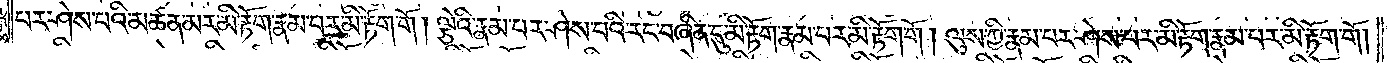པར་ཤེས་པའི་མཚན་མར་མི་རྟོག་རྣམ་པར་མི་རྟོག་གོ །ལྕེའི་རྣམ་པར་ཤེས་པའི་རང་བཞིན་དུ་མི་རྟོག་རྣམ་པར་མི་རྟོག་གོ །ལུས་ཀྱི་རྣམ་པར་ཤེས་པར་མི་རྟོག་རྣམ་པར་མི་རྟོག་གོ།
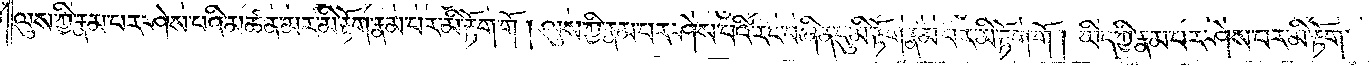ལུས་ཀྱི་རྣམ་པར་ཤེས་པའི་མཚན་མར་མི་རྟོག་རྣམ་པར་མི་རྟོག་གོ། ལུས་ཀྱི་རྣམ་པར་ཤེས་པའི་རང་བཞིན་དུ་མི་རྟོག་རྣམ་པར་མི་རྟོག་གོ །ཡིད་ཀྱི་རྣམ་པར་ཤེས་པར་མི་རྟོག་
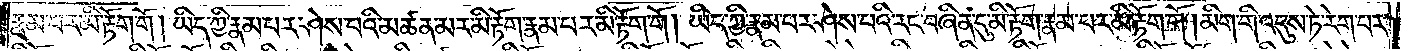རྣམ་པར་མི་རྟོག་གོ །ཡིད་ཀྱི་རྣམ་པར་ཤེས་པའི་མཚན་མར་མི་རྟོག་རྣམ་པར་མི་རྟོག་གོ །ཡིད་ཀྱི་རྣམ་པར་ཤེས་པའི་རང་བཞིན་དུ་མི་རྟོག་རྣམ་པར་མི་རྟོག་གོ །མིག་གི་འདུས་ཏེ་རེག་པར་
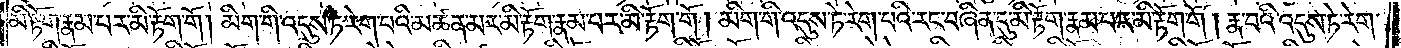མི་རྟོག་རྣམ་པར་མི་རྟོག་གོ །མིག་གི་འདུས་ཏེ་རེག་པའི་མཚན་མར་མི་རྟོག་རྣམ་པར་མི་རྟོག་གོ །མིག་གི་འདུས་ཏེ་རེག་པའི་རང་བཞིན་དུ་མི་རྟོག་རྣམ་པར་མི་རྟོག་གོ །རྣ་བའི་འདུས་ཏེ་རེག་
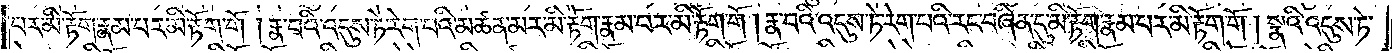པར་མི་རྟོག་རྣམ་པར་མི་རྟོག་གོ །རྣ་བའི་འདུས་ཏེ་རེག་པའི་མཚན་མར་མི་རྟོག་རྣམ་པར་མི་རྟོག་གོ །རྣ་བའི་འདུས་ཏེ་རེག་པའི་རང་བཞིན་དུ་མི་རྟོག་རྣམ་པར་མི་རྟོག་གོ །སྣའི་འདུས་ཏེ་
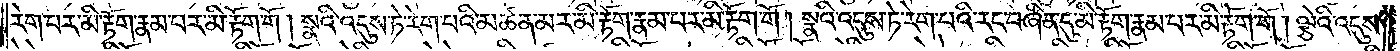རེག་པར་མི་རྟོག་རྣམ་པར་མི་རྟོག་གོ། སྣའི་འདུས་ཏེ་རེག་པའི་མཚན་མར་མི་རྟོག་རྣམ་པར་མི་རྟོག་གོ །སྣའི་འདུས་ཏེ་རེག་པའི་རང་བཞིན་དུ་མི་རྟོག་རྣམ་པར་མི་རྟོག་གོ །ལྕེའི་འདུས་
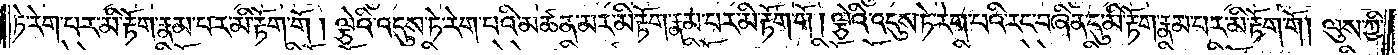ཏེ་རེག་པར་མི་རྟོག་རྣམ་པར་མི་རྟོག་གོ །ལྕེའི་འདུས་ཏེ་རེག་པའི་མཚན་མར་མི་རྟོག་རྣམ་པར་མི་རྟོག་གོ །ལྕེའི་འདུས་ཏེ་རེག་པའི་རང་བཞིན་དུ་མི་རྟོག་རྣམ་པར་མི་རྟོག་གོ །ལུས་ཀྱི་
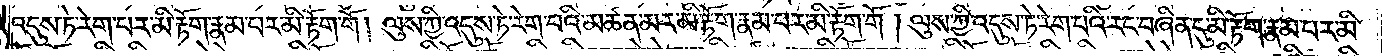འདུས་ཏེ་རེག་པར་མི་རྟོག་རྣམ་པར་མི་རྟོག་གོ །ལུས་ཀྱི་འདུས་ཏེ་རེག་པའི་མཚན་མར་མི་རྟོག་རྣམ་པར་མི་རྟོག་གོ །ལུས་ཀྱི་འདུས་ཏེ་རེག་པའི་རང་བཞིན་དུ་མི་རྟོག་རྣམ་པར་མི་
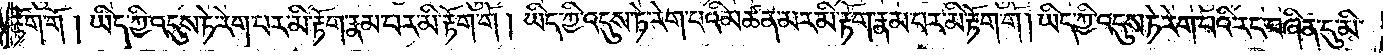རྟོག་གོ །ཡིད་ཀྱི་འདུས་ཏེ་རེག་པར་མི་རྟོག་རྣམ་པར་མི་རྟོག་གོ །ཡིད་ཀྱི་འདུས་ཏེ་རེག་པའི་མཚན་མར་མི་རྟོག་རྣམ་པར་མི་རྟོག་གོ །ཡིད་ཀྱི་འདུས་ཏེ་རེག་པའི་རང་བཞིན་དུ་མི་
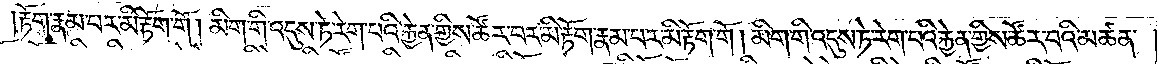རྟོག་རྣམ་པར་མི་རྟོག་གོ །མིག་གི་འདུས་ཏེ་རེག་པའི་རྐྱེན་གྱིས་ཚོར་བར་མི་རྟོག་རྣམ་པར་མི་རྟོག་གོ །མིག་གི་འདུས་ཏེ་རེག་པའི་རྐྱེན་གྱིས་ཚོར་བའི་མཚན་
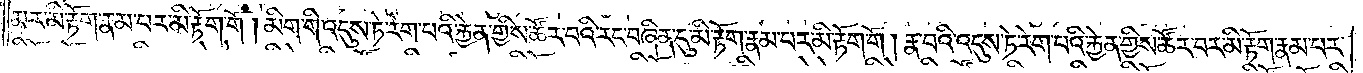མར་མི་རྟོག་རྣམ་པར་མི་རྟོག་གོ །མིག་གི་འདུས་ཏེ་རེག་པའི་རྐྱེན་གྱིས་ཚོར་བའི་རང་བཞིན་དུ་མི་རྟོག་རྣམ་པར་མི་རྟོག་གོ །རྣ་བའི་འདུས་ཏེ་རེག་པའི་རྐྱེན་གྱིས་ཚོར་བར་མི་རྟོག་རྣམ་པར་
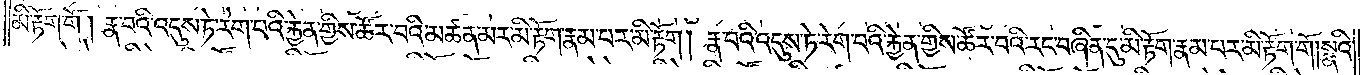མི་རྟོག་གོ །རྣ་བའི་འདུས་ཏེ་རེག་པའི་རྐྱེན་གྱིས་ཚོར་བའི་མཚན་མར་མི་རྟོག་རྣམ་པར་མི་རྟོག་གོ །རྣ་བའི་འདུས་ཏེ་རེག་པའི་རྐྱེན་གྱིས་ཚོར་བའི་རང་བཞིན་དུ་མི་རྟོག་རྣམ་པར་མི་རྟོག་གོ །སྣའི་
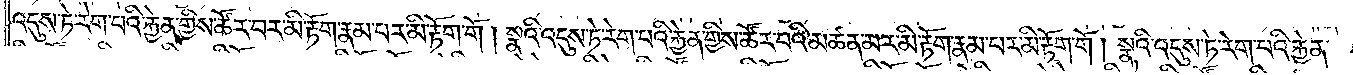འདུས་ཏེ་རེག་པའི་རྐྱེན་གྱིས་ཚོར་བར་མི་རྟོག་རྣམ་པར་མི་རྟོག་གོ །སྣའི་འདུས་ཏེ་རེག་པའི་རྐྱེན་གྱིས་ཚོར་བའི་མཚན་མར་མི་རྟོག་རྣམ་པར་མི་རྟོག་གོ །སྣའི་འདུས་ཏེ་རེག་པའི་རྐྱེན་
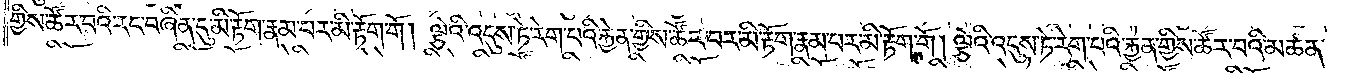གྱིས་ཚོར་བའི་རང་བཞིན་དུ་མི་རྟོག་རྣམ་པར་མི་རྟོག་གོ །ལྕེའི་འདུས་ཏེ་རེག་པའི་རྐྱེན་གྱིས་ཚོར་བར་མི་རྟོག་རྣམ་པར་མི་རྟོག་གོ །ལྕེའི་འདུས་ཏེ་རེག་པའི་རྐྱེན་གྱིས་ཚོར་བའི་མཚན་
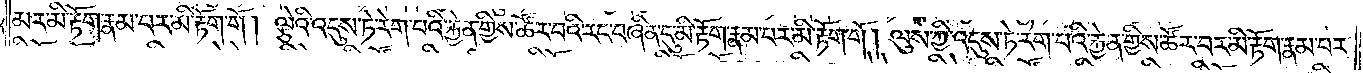མར་མི་རྟོག་རྣམ་པར་མི་རྟོག་གོ །ལྕེའི་འདུས་ཏེ་རེག་པའི་རྐྱེན་གྱིས་ཚོར་བའི་རང་བཞིན་དུ་མི་རྟོག་རྣམ་པར་མི་རྟོག་གོ །ལུས་ཀྱི་འདུས་ཏེ་རེག་པའི་རྐྱེན་གྱིས་ཚོར་བར་མི་རྟོག་རྣམ་པར་
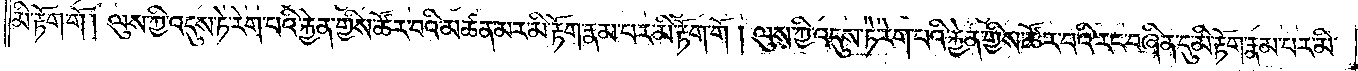མི་རྟོག་གོ །ལུས་ཀྱི་འདུས་ཏེ་རེག་པའི་རྐྱེན་གྱིས་ཚོར་བའི་མཚན་མར་མི་རྟོག་རྣམ་པར་མི་རྟོག་གོ །ལུས་ཀྱི་འདུས་ཏེ་རེག་པའི་རྐྱེན་གྱིས་ཚོར་བའི་རང་བཞིན་དུ་མི་རྟོག་རྣམ་པར་མི་
